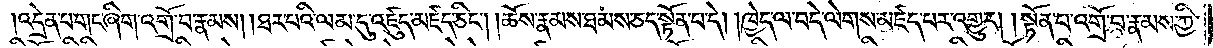འདྲེན་པ་གང་ཞིག་འགྲོ་བ་རྣམས། ཐར་པའི་ལམ་དུ་འཛུད་མཛད་ཅིང༌། །ཆོས་རྣམས་ཐམས་ཅད་སྟོན་པ་དེ། །ཁྱེད་ལ་བདེ་ལེགས་མཛད་པར་འགྱུར། །སྟོན་པ་འགྲོ་བ་རྣམས་ཀྱི
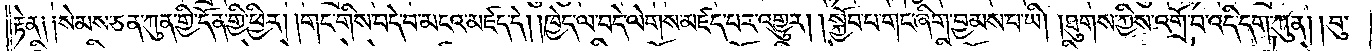རྟེན༑ ༑སེམས་ཅན་ཀུན་གྱི་དོན་གྱི་ཕྱིར། །གང་གིས་བདེ་བ་མངའ་མཛད་དེ། །ཁྱེད་ལ་བདེ་ལེགས་མཛད་པར་འགྱུར། །སྐྱོབ་པ་གང་ཞིག་བྱམས་པ་ཡི། །ཐུགས་ཀྱིས་འགྲོ་བ་འདི་དག་ཀུན། །བུ་
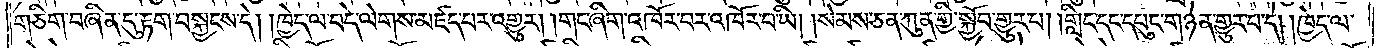གཅིག་བཞིན་དུ་རྟག་བསྐྱངས་དེ། །ཁྱེད་ལ་བདེ་ལེགས་མཛད་པར་འགྱུར། །གང་ཞིག་འཁོར་བར་འཁོར་བ་ཡི། །སེམས་ཅན་ཀུན་གྱི་སྐྱོབ་གྱུར་པ། །གླིང་དང་དཔུང་གཉེན་གྱུར་པ་དེ། །ཁྱེད་ལ་
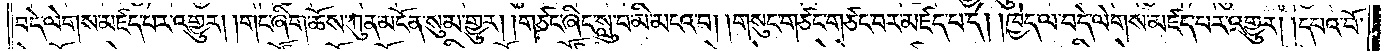བདེ་ལེགས་མཛད་པར་འགྱུར། །གང་ཞིག་ཆོས་ཀུན་མངོན་སུམ་གྱུར། །གཙང་ཞིང་ས་བ་མི་མངའ་བ། །གསུང་གཙང་གཙང་བར་མཛད་པ་དེ། །ཁྱེད་ལ་བདེ་ལེགས་མཛད་པར་འགྱུར། །དཔའ་བོ་
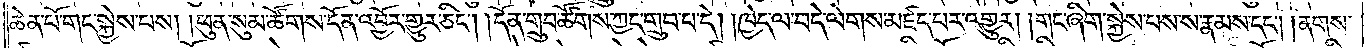ཆེན་པོ་གང་སྐྱེས་པས། །ཕུན་སུམ་ཚོགས་དོན་འབྱོར་གྱུར་ཅིང༌། །དོན་གྲུབ་ཚོགས་ཀྱང་གྲུབ་པ་དེ། །ཁྱེད་ལ་བདེ་ལེགས་མཛད་པར་འགྱུར། །གང་ཞིག་སྐྱེས་པས་ས་རྣམས་དང༌། །ནགས་
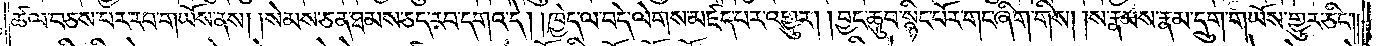ཚལ་བཅས་པར་རབ་གཡོས་ནས། །སེམས་ཅན་ཐམས་ཅད་རབ་དགའ་དེ། །ཁྱེད་ལ་བདེ་ལེགས་མཛད་པར་འགྱུར། །བྱང་ཆུབ་སྙིང་པོར་གང་ཞིག་གིས། །ས་རྣམས་རྣམ་དྲུག་གཡོས་གྱུར་ཅིང༌། །
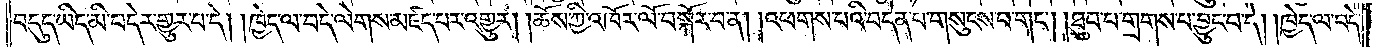བདུད་ཡིད་མི་བདེར་གྱུར་བ་དེ། །ཁྱེད་ལ་བདེ་ལེགས་མཛད་པར་འགྱུར། །ཆོས་ཀྱི་འཁོར་ལོ་བསྐོར་བ་ན། །འཕགས་པའི་བདེན་པ་གསུངས་པ་གང༌། །ཐུབ་པ་གྲགས་པ་བྱུང་བ་དེ། །ཁྱེད་ལ་བདེ་
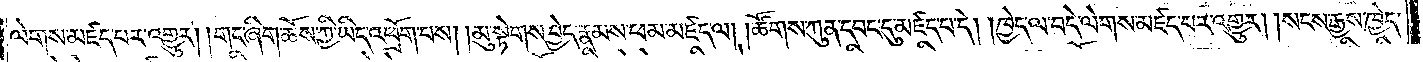ལེགས་མཛད་པར་འགྱུར། །གང་ཞིག་ཆོས་ཀྱི་ཡིད་འཕྲོག་པས། །མུ་སྟེགས་བྱེད་རྣམས་ཕམ་མཛད་ལ། །ཚོགས་ཀུན་དབང་དུ་མཛད་པ་དེ། །ཁྱེད་ལ་བདེ་ལེགས་མཛད་པར་འགྱུར། །སངས་རྒྱས་ཁྱེད་
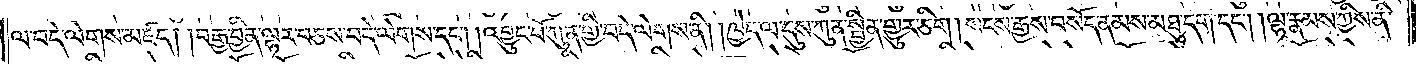ལ་བདེ་ལེགས་མཛད། །བརྒྱ་བྱིན་ལྷར་བཅས་བདེ་ལེགས་དང༌། །འབྱུང་པོ་ཀུན་གྱི་བདེ་ལེགས་ནི། །ཁྱེད་ལ་དུས་ཀུན་སྦྱིན་གྱུར་ཅིག །སངས་རྒྱས་བསོད་ནམས་མཐུ་དག་དང༌། །ལྷ་རྣམས་ཀྱིས་ནི་
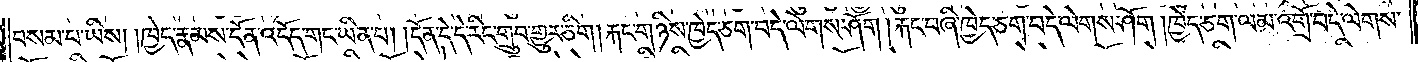བསམ་པ་ཡིས། །ཁྱེད་རྣམས་དོན་འདོད་གང་ཡིན་པ། །དོན་དེ་དེ་རིང་གྲུབ་གྱུར་ཅིག །རྐང་གཉིས་ཁྱེད་ཅག་བདེ་ལེགས་ཤོག །རྐང་བཞི་ཁྱེད་ཅག་བདེ་ལེགས་ཤོག། ཁྱེད་ཅག་ལམ་འགྲོ་བདེ་ལེགས་
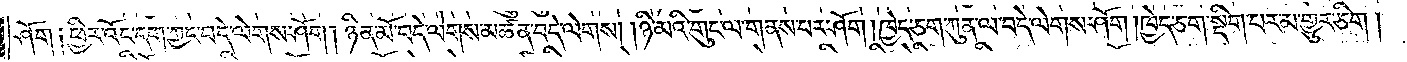ཤོག༑ ཕྱིར་འོང་དག་ཀྱང་བདེ་ལེགས་ཤོག །ཉིན་མོ་བདེ་ལེགས་མཚན་བདེ་ལེགས། །ཉི་མའི་གུང་ལ་གནས་པར་ཤོག །ཁྱེད་ཅག་ཀུན་ལ་བདེ་ལེགས་ཤོག །ཁྱེད་ཅག་སྡིག་པར་མ་གྱུར་ཅིག །
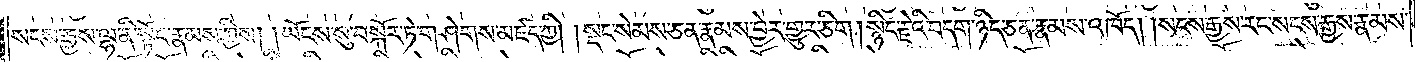སངས་རྒྱས་ལྷ་ནི་སྟོང་རྣམས་ཀྱིས། །ཡོངས་སུ་བསྐོར་ཏེ་གཤེགས་མཛད་ཀྱི། །སྡང་སེམས་ཅན་རྣམས་བྱེར་གྱུར་ཅིག །སྙིང་རྗེའི་བདག་ཉིད་ཅན་རྣམས་འཁོད། །སངས་རྒྱས་རང་སངས་རྒྱས་རྣམས་
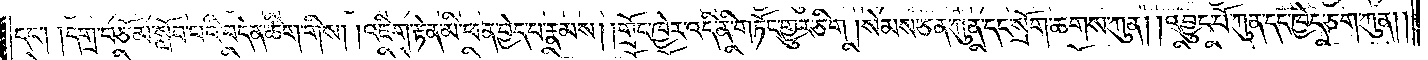དང་༑ ༑དགྲ་བཅོམ་སློབ་པའི་བདེན་ཚིག་གིས། །འཇིག་རྟེན་མི་ཕན་བྱེད་པ་རྣམས། །གྲོང་ཁྱེར་འདི་ནི་གཏོང་གྱུར་ཅིག །སེམས་ཅན་ཀུན་དང་སྲོག་ཆགས་ཀུན། །འབྱུང་པོ་ཀུན་དང་ཁྱེད་ཅག་ཀུན། །
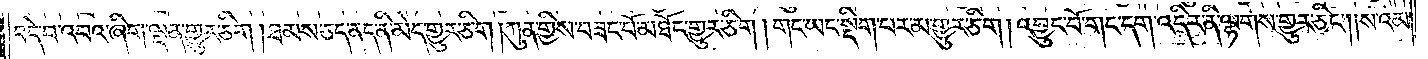བདེ་བ་འབའ་ཞིག་ལྡན་གྱུར་ཅིག །ཐམས་ཅད་ནད་ནི་མེད་གྱུར་ཅིག །ཀུན་གྱིས་བཟང་པོ་མཐོང་གྱུར་ཅིག །གང་ཡང་སྡིག་པར་མ་གྱུར་ཅིག །འབྱུང་པོ་གང་དག་འདིར་ནི་ལྷགས་གྱུར་ཅིང༌། །སའམ་
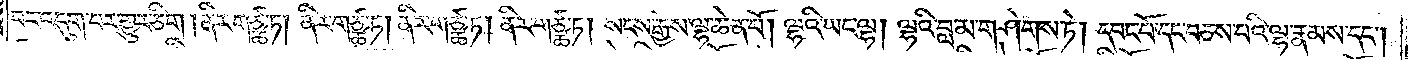བར་འདུག་པར་གྱུར་ཅིག །ནིར་གཙྪ་ཏ། ནིར་གཙྪ་ཏ། ནིར་གཙྪ་ཏ། ནིར་གཙྪ་ཏ། སངས་རྒྱས་ལྷ་ཆེན་པོ། ལྷའི་ཡང་ལྷ། ལྷའི་བླ་མ་གཤེགས་ཏེ། དབང་པོ་དང་བཅས་པའི་ལྷ་རྣམས་དང༌།
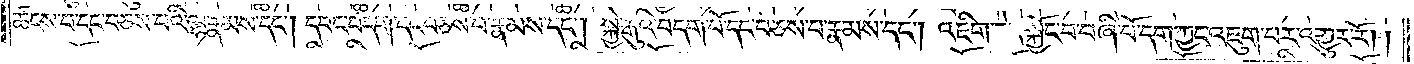ཚངས་པ་དང་བཅས་པའི་ལྷ་རྣམས་དང༌། དབང་བདག་དང་བཅས་པ་རྣམས་དང༌། སྐྱེ་རྒུའི་བདག་པོ་དང་བཅས་པ་རྣམས་དང༌། འཇིག་རྟེན་སྐྱོང་བ་བཞི་པོ་དག་ཀྱང་འཇུག་པར་འགྱུར་རོ། །
